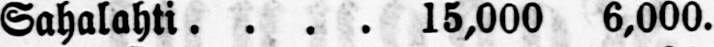Sahalahti. 15,000 6,000.
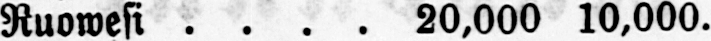Ruowesi 20,000 10,000.
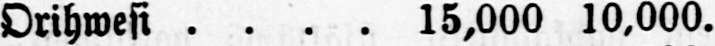Orihwesi 15,000 10,000.
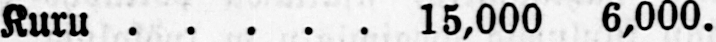Kuru 15,000 6,000.
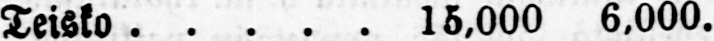Teisko. 15,000 6,000.
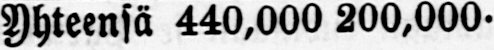Yhteensä 440,000 200,000.
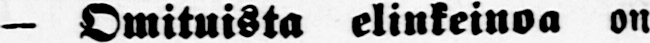— Omituista elinkeinoa on
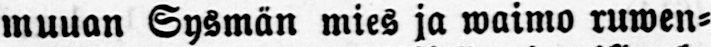muuan Sysmän mies ja waimo ruwen-
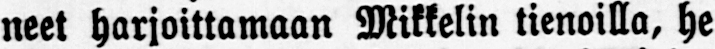neet harjoittamaan Mikkelin tienoilla, he
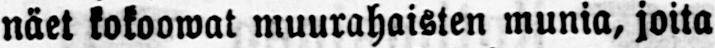näet kokoowat muurahaisten munia, joita
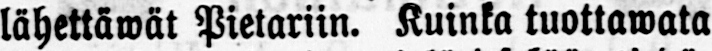lähettäwät Pietariin. Kuinka tuottawata
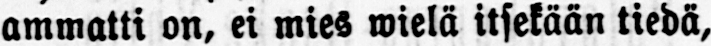ammatti on, ei mies wielä itsekään tiedä,
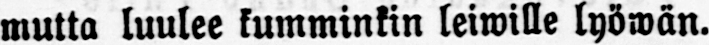mutta luulee kumminkin leiwille lyöwän.
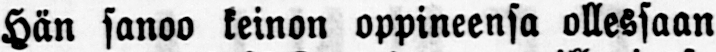Hän sanoo keinon oppineensa ollessaan
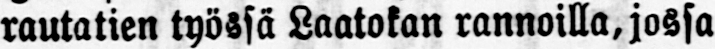rautatien työssä Laatokan rannoilla, jossa
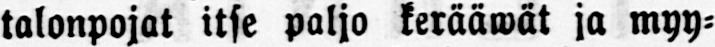talonpojat itse paljo kerääwät ja myy-
